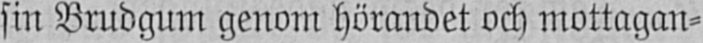sin Brudgum genom hörandet och mottagan-
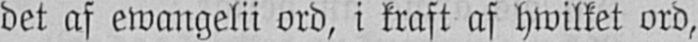det af ewangelii ord, i kraft af hwilket ord,
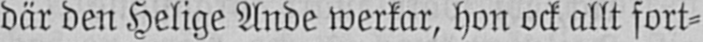där den Helige Ande werkar, hon ock allt fort-
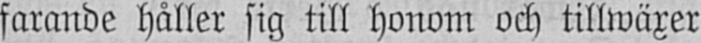farande håller sig till honom och tillwäxer
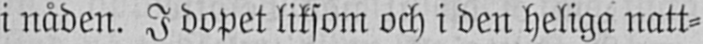i nåden. I dopet liksom och i den heliga natt-
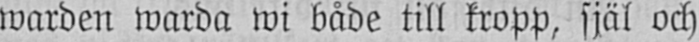warden warda wi både till kropp, själ och
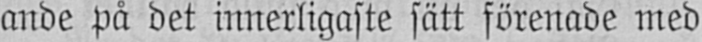ande på det innerligaste sätt förenade med
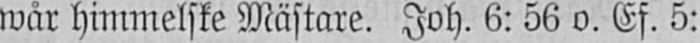wår himmelske Mästare. Joh. 6: 56 o. Ef. 5:
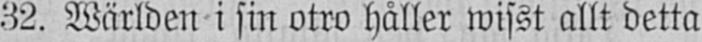32. Wärlden i sin otro håller wisst allt detta
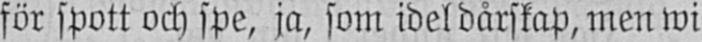för spott och spe, ja, som idel dårskap, men wi
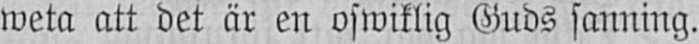weta att det är en oswiklig Guds sanning.
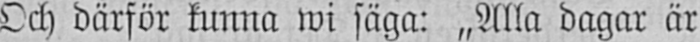Och därför kunna wi säga: „Alla dagar är
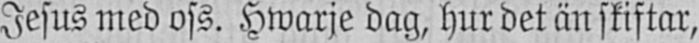Jesus med oss. Hwarje dag, hur det än skiftar,
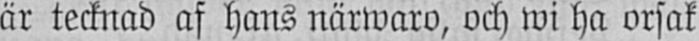är tecknad af hans närwaro, och wi ha orsak
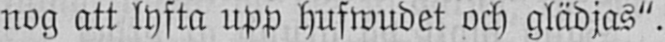nog att lyfta upp hufwudet och glädjas".
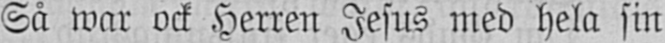Så war ock Herren Jesus med hela sin
